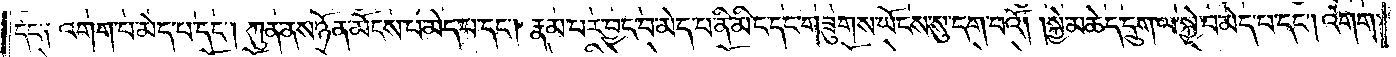དང་༑ འགག་པ་མེད་པ་དང༌། ཀུན་ནས་ཉོན་མོངས་པ་མེད་པ་དང༌། རྣམ་པར་བྱང་བ་མེད་པ་ནི་མིང་དང་གཟུགས་ཡོངས་སུ་དག་པའོ། །སྐྱེ་མཆེད་དྲུག་ལ་སྐྱེ་བ་མེད་པ་དང༌། འགག་
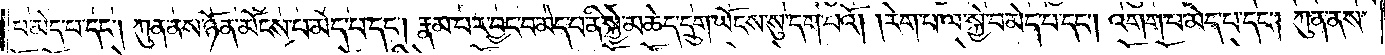པ་མེད་པ་དང༌། ཀུན་ནས་ཉོན་མོངས་པ་མེད་པ་དང༌། རྣམ་པར་བྱང་བ་མེད་པ་ནི་སྐྱེ་མཆེད་དྲུག་ཡོངས་སུ་དག་པའོ། །རེག་པ་ལ་སྐྱེ་བ་མེད་པ་དང༌། འགག་པ་མེད་པ་དང༌། ཀུན་ནས་
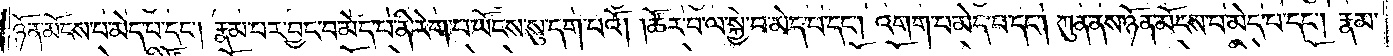ཉོན་མོངས་པ་མེད་པ་དང༌། རྣམ་པར་བྱང་བ་མེད་པ་ནི་རེག་པ་ཡོངས་སུ་དག་པའོ། །ཚོར་བ་ལ་སྐྱེ་བ་མེད་པ་དང༌། འགག་པ་མེད་པ་དང༌། ཀུན་ནས་ཉོན་མོངས་པ་མེད་པ་དང༌། རྣམ་
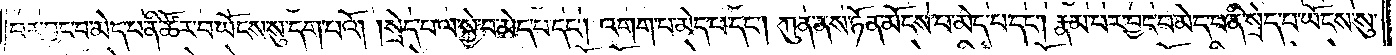པར་བྱང་བ་མེད་པ་ནི་ཚོར་བ་ཡོངས་སུ་དག་པའོ། །སྲེད་པ་ལ་སྐྱེ་བ་མེད་པ་དང༌། འགག་པ་མེད་པ་དང༌། ཀུན་ནས་ཉོན་མོངས་པ་མེད་པ་དང༌། རྣམ་པར་བྱང་བ་མེད་པ་ནི་སྲེད་པ་ཡོངས་སུ་
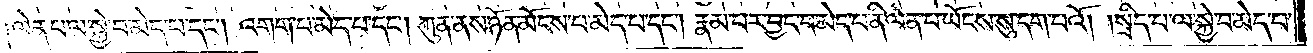།ལེན་པ་ལ་སྐྱེ་བ་མེད་པ་དང༌། འགག་པ་མེད་པ་དང༌། ཀུན་ནས་ཉོན་མོངས་པ་མེད་པ་དང༌། རྣམ་པར་བྱང་བ་མེད་པ་ནི་ལེན་པ་ཡོངས་སུ་དག་པའོ། །སྲིད་པ་ལ་སྐྱེ་བ་མེད་པ་
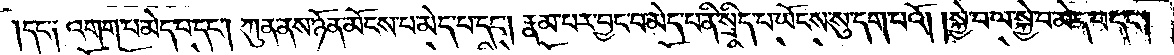དང་༑ འགག་པ་མེད་པ་དང༌། ཀུན་ནས་ཉོན་མོངས་པ་མེད་པ་དང༌། རྣམ་པར་བྱང་བ་མེད་པ་ནི་སྲིད་པ་ཡོངས་སུ་དག་པའོ། །སྐྱེ་བ་ལ་སྐྱེ་བ་མེད་པ་དང༌།
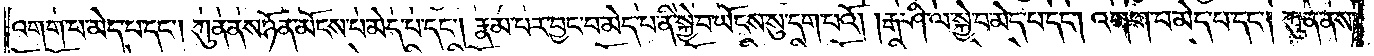འགག་པ་མེད་པ་དང༌། ཀུན་ནས་ཉོན་མོངས་པ་མེད་པ་དང༌། རྣམ་པར་བྱང་བ་མེད་པ་ནི་སྐྱེ་བ་ཡོངས་སུ་དག་པའོ། །རྒ་ཤི་ལ་སྐྱེ་བ་མེད་པ་དང༌། འགག་པ་མེད་པ་དང༌། ཀུན་ནས་
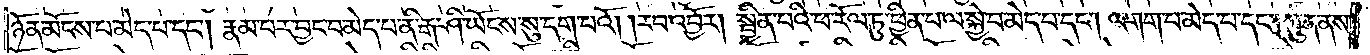ཉོན་མོངས་པ་མེད་པ་དང༌། རྣམ་པར་བྱང་བ་མེད་པ་ནི་རྒ་ཤི་ཡོངས་སུ་དག་པའོ། །རབ་འབྱོར། སྦྱིན་པའི་ཕ་རོལ་ཏུ་ཕྱིན་པ་ལ་སྐྱེ་བ་མེད་པ་དང༌། འགག་པ་མེད་པ་དང༌། ཀུན་ནས་
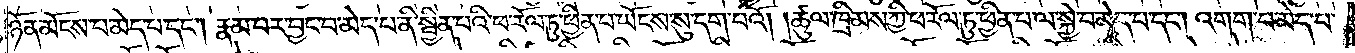ཉོན་མོངས་པ་མེད་པ་དང༌། རྣམ་པར་བྱང་བ་མེད་པ་ནི་སྦྱིན་པའི་ཕ་རོལ་ཏུ་ཕྱིན་པ་ཡོངས་སུ་དག་པའོ། །ཚུལ་ཁྲིམས་ཀྱི་ཕ་རོལ་ཏུ་ཕྱིན་པ་ལ་སྐྱེ་བ་མེད་པ་དང༌། འགག་པ་མེད་པ་
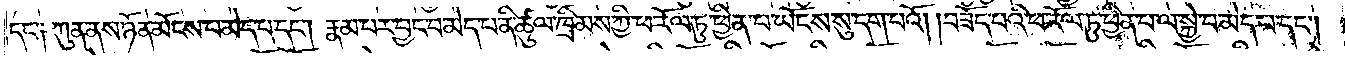དང་༑ ཀུན་ནས་ཉོན་མོངས་པ་མེད་པ་དང༌། རྣམ་པར་བྱང་བ་མེད་པ་ནི་ཚུལ་ཁྲིམས་ཀྱི་ཕ་རོལ་ཏུ་ཕྱིན་པ་ཡོངས་སུ་དག་པའོ། །བཟོད་པའི་ཕ་རོལ་ཏུ་ཕྱིན་པ་ལ་སྐྱེ་བ་མེད་པ་དང༌།
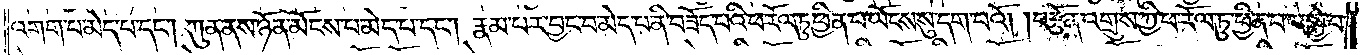འགག་པ་མེད་པ་དང༌། ཀུན་ནས་ཉོན་མོངས་པ་མེད་པ་དང༌། རྣམ་པར་བྱང་བ་མེད་པ་ནི་བཟོད་པའི་ཕ་རོལ་ཏུ་ཕྱིན་པ་ཡོངས་སུ་དག་པའོ། །བརྩོན་འགྲུས་ཀྱི་ཕ་རོལ་ཏུ་ཕྱིན་པ་ལ་སྐྱེ་བ་
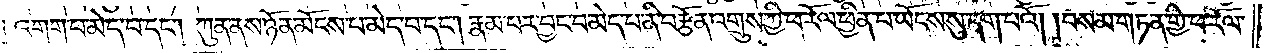འགག་པ་མེད་པ་དང༌། ཀུན་ནས་ཉོན་མོངས་པ་མེད་པ་དང༌། རྣམ་པར་བྱང་བ་མེད་པ་ནི་བརྩོན་འགྲུས་ཀྱི་ཕ་རོལ་ཏུ་ཕྱིན་པ་ཡོངས་སུ་དག་པའོ། །བསམ་གཏན་གྱི་ཕ་རོལ་
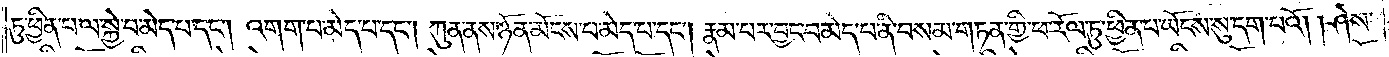ཏུ་ཕྱིན་པ་ལ་སྐྱེ་བ་མེད་པ་དང༌། འགག་པ་མེད་པ་དང༌། ཀུན་ནས་ཉོན་མོངས་པ་མེད་པ་དང༌། རྣམ་པར་བྱང་བ་མེད་པ་ནི་བསམ་གཏན་གྱི་ཕ་རོལ་ཏུ་ཕྱིན་པ་ཡོངས་སུ་དག་པའོ། །ཤེས་
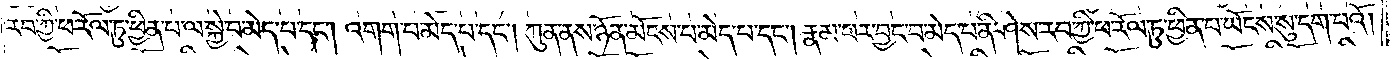རབ་ཀྱི་ཕ་རོལ་ཏུ་ཕྱིན་པ་ལ་སྐྱེ་བ་མེད་པ་དང༌། འགག་པ་མེད་པ་དང༌། ཀུན་ནས་ཉོན་མོངས་པ་མེད་པ་དང༌། རྣམ་པར་བྱང་བ་མེད་པ་ནི་ཤེས་རབ་ཀྱི་ཕ་རོལ་ཏུ་ཕྱིན་པ་ཡོངས་སུ་དག་པའོ། །
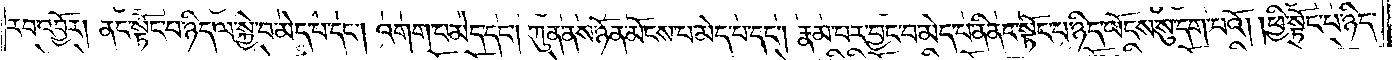རབ་འབྱོར། ནང་སྟོང་པ་ཉིད་ལ་སྐྱེ་བ་མེད་པ་དང༌། འགག་པ་མེད་པ་དང༌། ཀུན་ནས་ཉོན་མོངས་པ་མེད་པ་དང༌། རྣམ་པར་བྱང་བ་མེད་པ་ནི་ནང་སྟོང་པ་ཉིད་ཡོངས་སུ་དག་པའོ། །ཕྱི་སྟོང་པ་ཉིད་
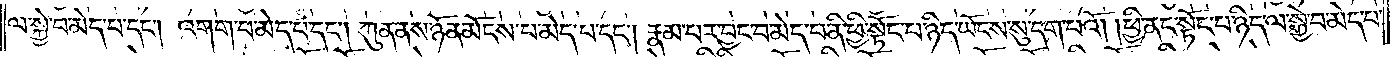ལ་སྐྱེ་བ་མེད་པ་དང༌། འགག་པ་མེད་པ་དང༌། ཀུན་ནས་ཉོན་མོངས་པ་མེད་པ་དང༌། རྣམ་པར་བྱང་བ་མེད་པ་ནི་ཕྱི་སྟོང་པ་ཉིད་ཡོངས་སུ་དག་པའོ། །ཕྱི་ནང་སྟོང་པ་ཉིད་ལ་སྐྱེ་བ་མེད་པ་
